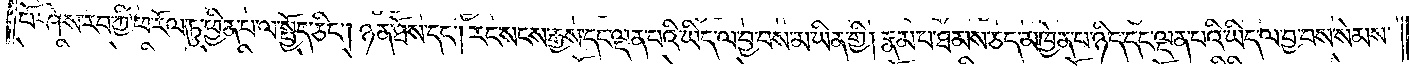པོ་ཤེས་རབ་ཀྱི་ཕ་རོལ་ཏུ་ཕྱིན་པ་ལ་སྤྱོད་ཅིང༌། ཉན་ཐོས་དང༌། རང་སངས་རྒྱས་དང་ལྡན་པའི་ཡིད་ལ་བྱ་བས་མ་ཡིན་གྱི། རྣམ་པ་ཐམས་ཅད་མཁྱེན་པ་ཉིད་དང་ལྡན་པའི་ཡིད་ལ་བྱ་བས་སེམས་
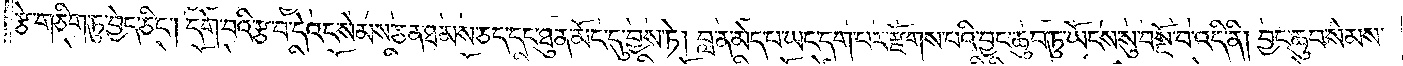རྩེ་གཅིག་ཏུ་བྱེད་ཅིང༌། དགེ་བའི་རྩ་བ་དེའང་སེམས་ཅན་ཐམས་ཅད་དང་ཐུན་མོང་དུ་བྱས་ཏེ། བླ་ན་མེད་པ་ཡང་དག་པར་རྫོགས་པའི་བྱང་ཆུབ་ཏུ་ཡོངས་སུ་བསྔོ་བ་འདི་ནི། བྱང་ཆུབ་སེམས་
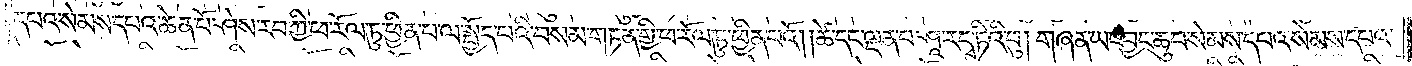དཔའ་སེམས་དཔའ་ཆེན་པོ་ཤེས་རབ་ཀྱི་ཕ་རོལ་ཏུ་ཕྱིན་པ་ལ་སྤྱོད་པའི་བསམ་གཏན་གྱི་ཕ་རོལ་ཏུ་ཕྱིན་པའོ། །ཚེ་དང་ལྡན་པ་ཤཱ་རདྭ་ཏིའི་བུ། གཞན་ཡང་བྱང་ཆུབ་སེམས་དཔའ་སེམས་དཔའ་
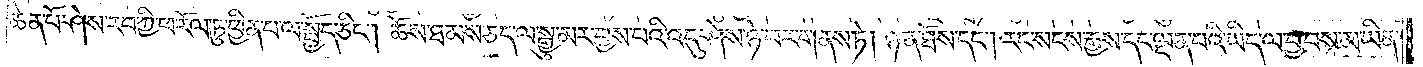ཆེན་པོ་ཤེས་རབ་ཀྱི་ཕ་རོལ་ཏུ་ཕྱིན་པ་ལ་སྤྱོད་ཅིང༌། ཆོས་ཐམས་ཅད་ལ་སྒྱུ་མར་བྱས་པའི་འདུ་ཤེས་ཉེ་བར་གནས་ཏེ། ཉན་ཐོས་དང༌། རང་སངས་རྒྱས་དང་ལྡན་པའི་ཡིད་ལ་བྱ་བས་མ་ཡིན་
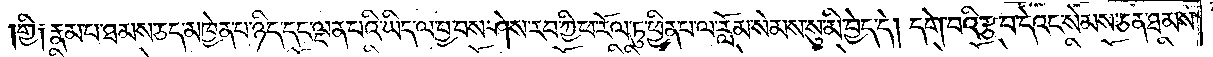གྱི། རྣམ་པ་ཐམས་ཅད་མཁྱེན་པ་ཉིད་དང་ལྡན་པའི་ཡིད་ལ་བྱ་བས་ཤེས་རབ་ཀྱི་ཕྲ་རོལ་ཏུ་ཕྱིན་པ་ལ་རློམ་སེམས་སུ་མི་བྱེད་དེ། དགེ་བའི་རྩ་བ་དེའང་སེམས་ཅན་ཐམས་
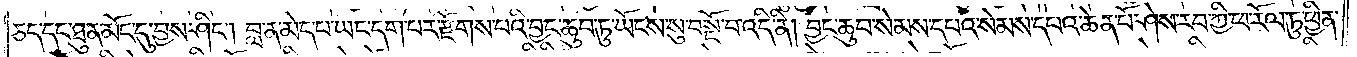ཅད་དང་ཐུན་མོང་དུ་བྱས་ཤིང༌། བླ་ན་མེད་པ་ཡང་དག་པར་རྫོགས་པའི་བྱང་ཆུབ་ཏུ་ཡོངས་སུ་བསྔོ་བ་འདི་ནི། བྱང་ཆུབ་སེམས་དཔའ་སེམས་དཔའ་ཆེན་པོ་ཤེས་རབ་ཀྱི་ཕ་རོལ་ཏུ་ཕྱིན་
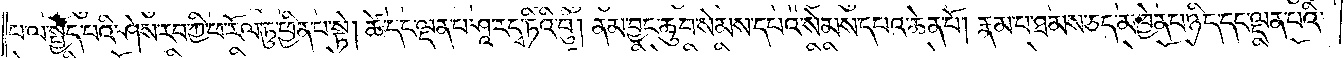པ་ལ་སྤྱོད་པའི་ཤེས་རབ་ཀྱི་ཕ་རོལ་ཏུ་ཕྱིན་པ་སྟེ། ཚེ་དང་ལྡན་པ་ཤཱ་རདྭ་ཏིའི་བུ། ནམ་བྱང་ཆུབ་སེམས་དཔའ་སེམས་དཔའ་ཆེན་པོ། རྣམ་པ་ཐམས་ཅད་མཁྱེན་པ་ཉིད་དང་ལྡན་པའི་
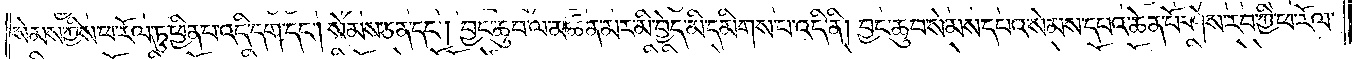སེམས་ཀྱིས་ཕ་རོལ་ཏུ་ཕྱིན་པ་འདི་དག་དང༌། སེམས་ཅན་དང༌། བྱང་ཆུབ་ལ་མཚན་མར་མི་བྱེད་མི་དམིགས་པ་འདི་ནི། བྱང་ཆུབ་སེམས་དཔའ་སེམས་དཔའ་ཆེན་པོ་ཤེས་རབ་ཀྱི་ཕ་རོལ་
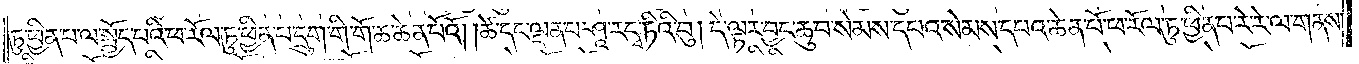ཏུ་ཕྱིན་པ་ལ་སྤྱོད་པའི་ཕ་རོལ་ཏུ་ཕྱིན་པ་དྲུག་གི་གོ་ཆ་ཆེན་པོའོ། །ཚེ་དང་ལྡན་པ་ཤཱ་རདྭ་ཏིའི་བུ། དེ་ལྟར་བྱང་ཆུབ་སེམས་དཔའ་སེམས་དཔའ་ཆེན་པོ་ཤེས་རབ་ཀྱི་ཕ་རོལ་ཏུ་ཕྱིན་པ་རེ་རེ་ལ་གནས་
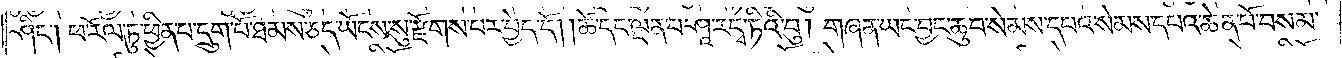ཤིང༌། ཕ་རོལ་ཏུ་ཕྱིན་པ་དྲུག་པོ་ཐམས་ཅད་ཡོངས་སུ་རྫོགས་པར་བྱེད་དོ། །ཚེ་དང་ལྡན་པ་ཤཱ་རདྭ་ཏིའི་བུ། གཞན་ཡང་བྱང་ཆུབ་སེམས་དཔའ་སེམས་དཔའ་ཆེན་པོ་བསམ་
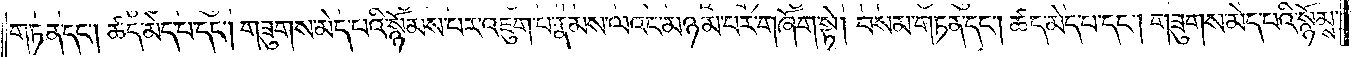གཏན་དང༌། ཚད་མེད་པ་དང༌། གཟུགས་མེད་པའི་སྙོམས་པར་འཇུག་པ་རྣམས་ལའང་མཉམ་པར་གཞོག་སྟེ། བསམ་གཏན་དང༌། ཚད་མེད་པ་དང༌། གཟུགས་མེད་པའི་སྙོམས་
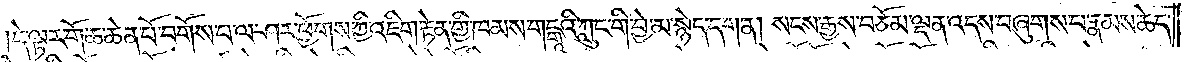དེ་ལྟར་གོ་ཆ་ཆེན་པོ་བགོས་པ་ལ་ཤར་ཕྱོགས་ཀྱི་འཇིག་རྟེན་གྱི་ཁམས་གངྒཱའི་ཀླུང་གི་བྱེ་མ་སྙེད་དག་ན། སངས་རྒྱས་བཅོམ་ལྡན་འདས་བཞུགས་པ་རྣམས་ཆེད་
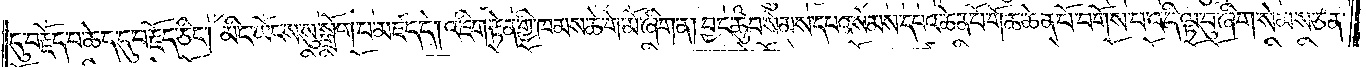དུ་བརྗོད་པ་ཆེད་དུ་བརྗོད་ཅིང༌། མིང་ཡོངས་སུ་སྒྲོག་པ་མཛད་དོ། འཇིག་རྟེན་གྱི་ཁམས་ཆེ་གེ་མོ་ཞིག་ན། བྱང་ཆུབ་སེམས་དཔའ་སེམས་དཔའ་ཆེན་པོ་གོ་ཆ་ཆེན་པོ་བགོས་པ་འདི་ལྟ་བུ་ཞིག་སེམས་ཅན་
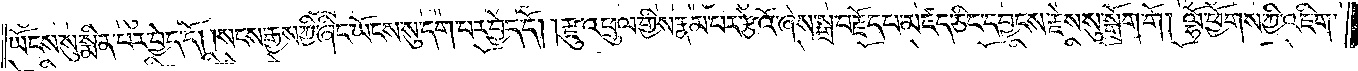ཡོངས་སུ་སྨིན་པར་བྱེད་དོ། །སངས་རྒྱས་ཀྱི་ཞིང་ཡོངས་སུ་དག་པར་བྱེད་དོ། །རྫུ་འཕྲུལ་གྱིས་རྣམ་པར་རྩེའོ་ཞེས་སྒྲ་བརྗོད་པ་མཛད་ཅིང་དབྱངས་རྗེས་སུ་སྒྲོག་གོ །ལྷོ་ཕྱོགས་ཀྱི་འཇིག་
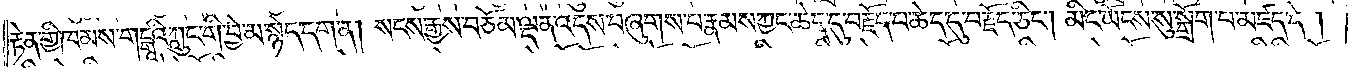རྟེན་གྱི་ཁམས་གངྒཱའི་ཀླུང་གི་བྱེ་མ་སྙེད་དག་ན། སངས་རྒྱས་བཅོམ་ལྡན་འདས་བཞུགས་པ་རྣམས་ཀྱང་ཆེད་དུ་བརྗོད་པ་ཆེད་དུ་བརྗོད་ཅིང༌། མིང་ཡོངས་སུ་སྒྲོག་པ་མཛད་དེ།
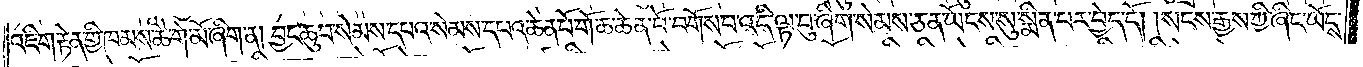འཇིག་རྟེན་གྱི་ཁམས་ཆེ་གེ་མོ་ཞིག་ན། བྱང་ཆུབ་སེམས་དཔའ་སེམས་དཔའ་ཆེན་པོ་གོ་ཆ་ཆེན་པོ་བགོས་པ་འདི་ལྟ་བུ་ཞིག་སེམས་ཅན་ཡོངས་སུ་སྨིན་པར་བྱེད་དོ། །སངས་རྒྱས་ཀྱི་ཞིང་ཡོངས་
